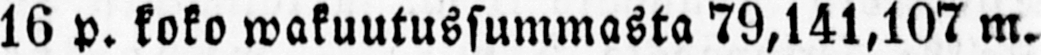16 p. koko wakuutussummasta 79,141,107 m.
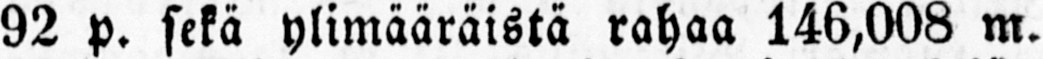92 p. sekä ylimääräistä rahaa 146,008 m.
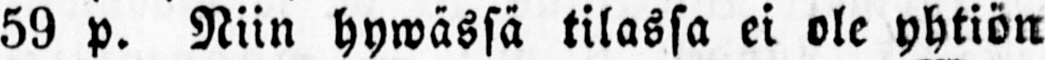59 p. Niin hywässä tilassa ei ole yhtiön
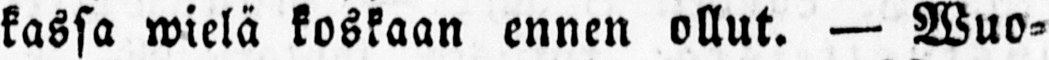kassa wielä koskaan ennen ollut. — Wuo-
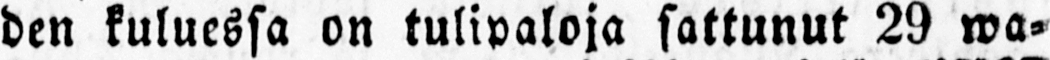den kuluessa on tulipaloja sattunut 29 wa-
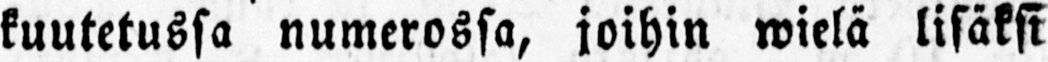kuutetussa numerossa, joihin wielä lisäksi
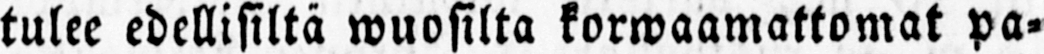tulee edellisiltä wuosilta korwaamattomat pa-
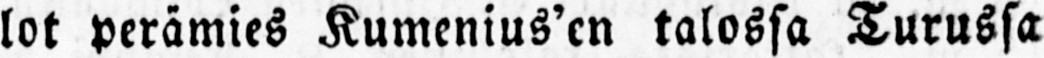lot perämies Kumenius'en talossa Turussa
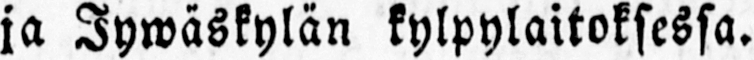ja Jywäskylän kylpylaitoksessa.
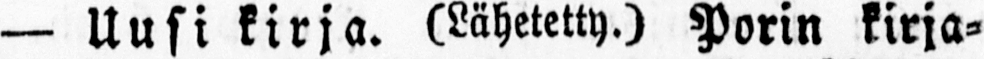— Uusi kirja. (Lähetetty.) Porin kirja-
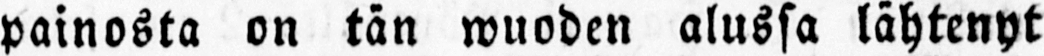painosta on tän wuoden alussa lähtenyt
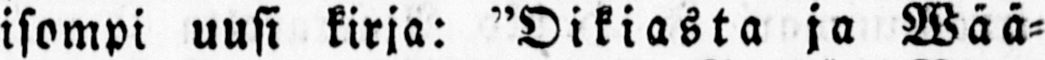isompi uusi kirja: "Oikiasta ja Wää-
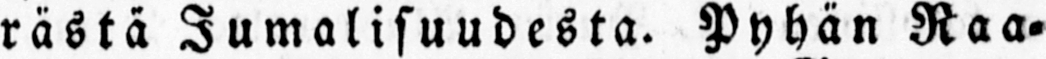rästä Jumalisuudesta. Pyhän Raa-
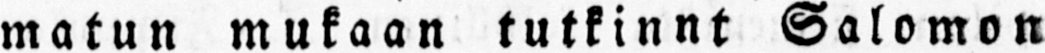matun mukaan tutkinnt Salomon
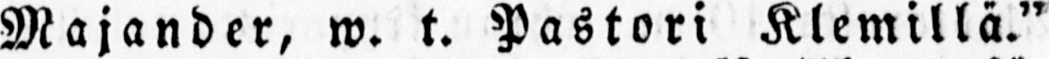Majander, w. t. Pastori Klemillä."
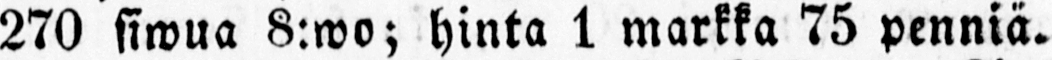270 siwua 8:wo; hinta 1 markka 75 penniä.
